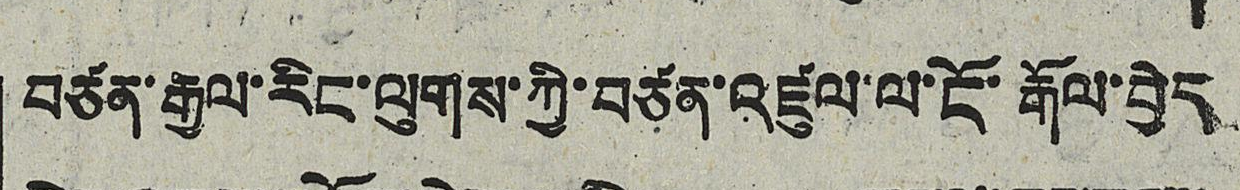བཙན་རྒྱལ་རིང་ལུགས་ཀྱི་བཙན་འཛུལ་ལ་ངོ་རྒོལ་བྱེད
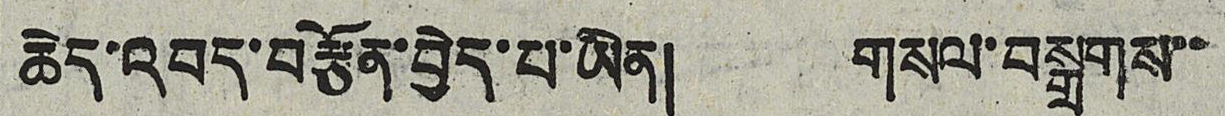ཆེད་འབད་བརྩོན་བྱེད་པ་ཡིན། གསལ་བསྒྲགས་་
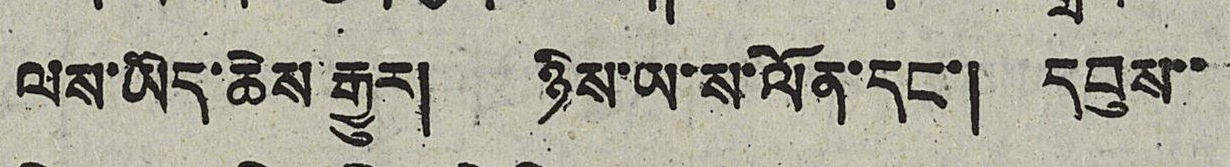ལས་ཡིད་ཆེས་རྒྱུར། ཉིས་ཡ་ས་ལོན་དང་། དབུས་་
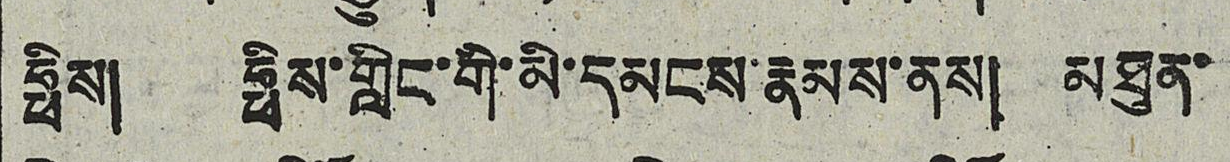ཧྥིས། ཧྥིས་གླིང་གི་མི་དམངས་རྣམས་ནས། མཐུན་
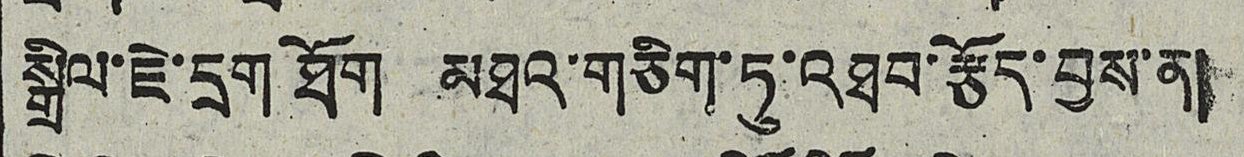སྒྲིལ་ཇེ་དྲག ཐོག མཐའ་གཅིག་ཏུ་འཐབ་རྩོད་བྱས་ན།
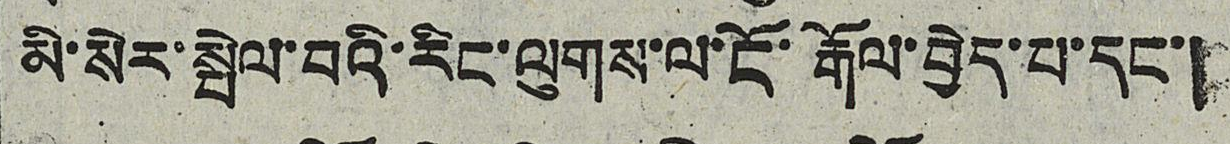མི་སེར་སྤེལ་བའི་རིང་ལུགས་ལ་ངོ་རྒོལ་བྱེད་པ་དང་།
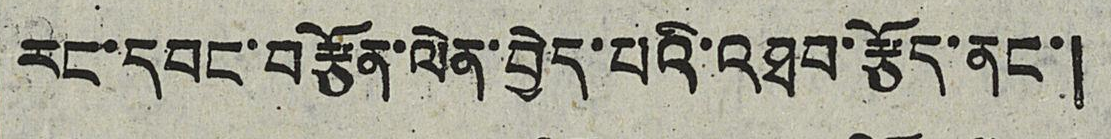རང་དབང་བརྩོན་ལེན་བྱེད་པའི་འཐབ་རྩོད་ནང་།
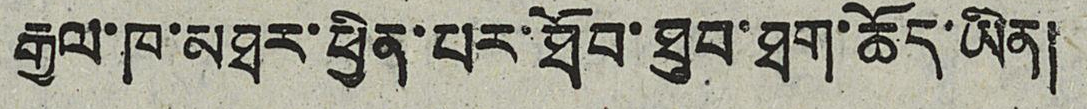རྒྱལ་ཁ་མཐར་ཕྱིན་པར་ཐོབ་ཐུབ་ཐག་ཆོད་ཡིན།
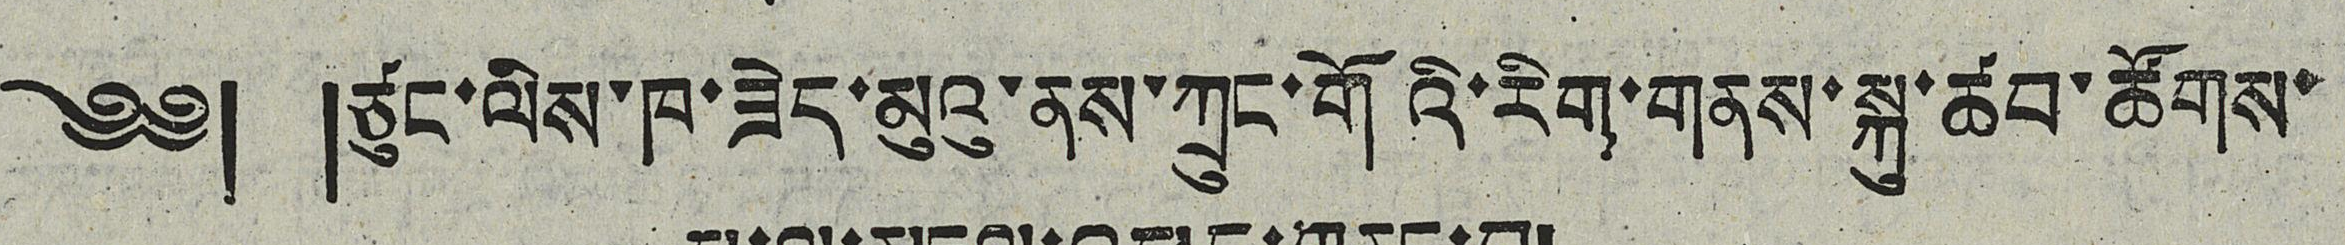༄༅། །ཙུང་ལིས་ཁ་ཟེད་མུའུ་ནས་ཀྲུང་གོའི་རིག་གནས་སྐུ་ཚབ་ཚོགས་
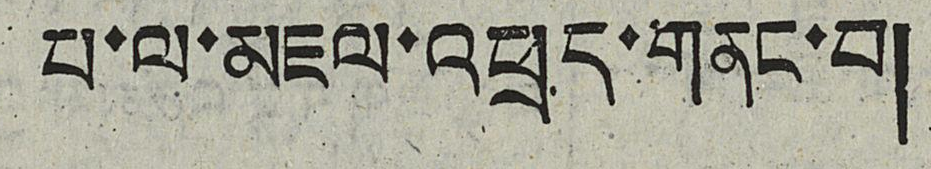པ་ལ་མཇལ་འཕྲད་གནང་བ།
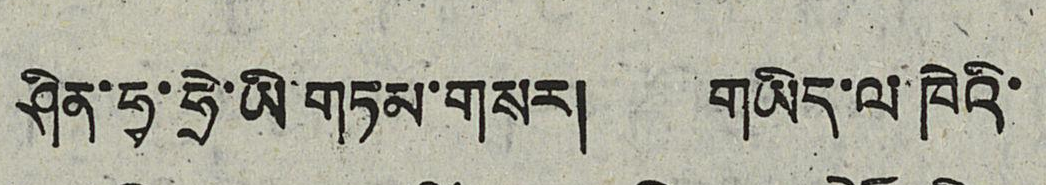ཤིན་ཧྭ་ཧྲེ་ཡི་གཏམ་གསར། གཡིད་ལ་ཁེའི་
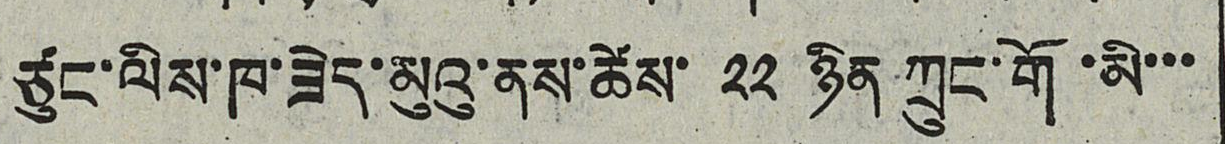ཙུང་ལིས་ཁ་ཟེད་མུའུ་ནས་ཚེས་ ༢༢ ཉིན ཀྲུང་གོ་མི་་་
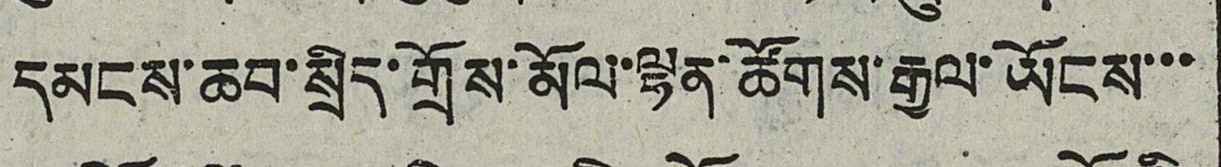དམངས་ཆབ་སྲིད་གྲོས་མོལ་ལྷན་ཚོགས་རྒྱལ་ཡོངས་་་
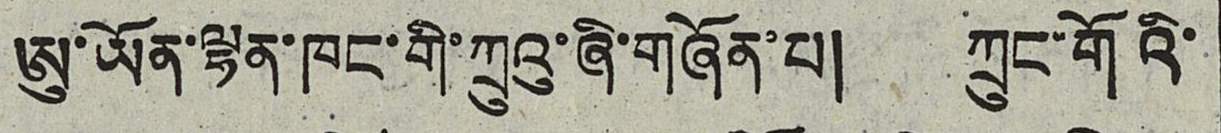ཨུ་ཡོན་ལྷན་ཁང་གི་ཀྲུའུ་ཞི་གཞོན་པ། ཀྲུང་གོའི
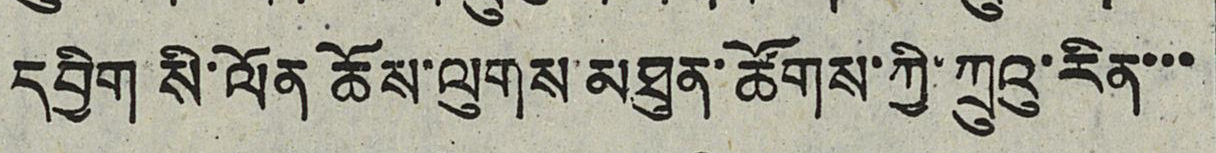དབྱིག སི་ལོན ཆོས་ལུགས་མཐུན་ཚོགས་ཀྱི་ཀྲུའུ་རིན་་་
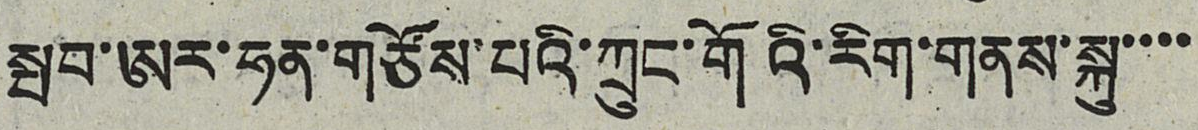སྤབ་ཨར་ཧན་གཙོས་པའི་ཀྲུང་གོའི་རིག་གནས་སྐུ་་་
